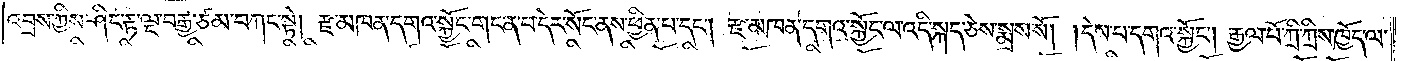འབྲས་ཀྱིས་ཤིང་རྟ་ལྔ་བརྒྱ་ཙམ་བཀང་སྟེ། རྫ་མཁན་དགའ་སྐྱོང་གང་ན་བ་དེར་སོང་ནས་ཕྱིན་པ་དང༌། རྫ་མཁན་དགའ་སྐྱོང་ལ་འདི་སྐད་ཅེས་སྨྲས་སོ། །དེས་པ་དགའ་སྐྱོང༌། རྒྱལ་པོ་ཀྲི་ཀྲིས་ཁྱོད་ལ་
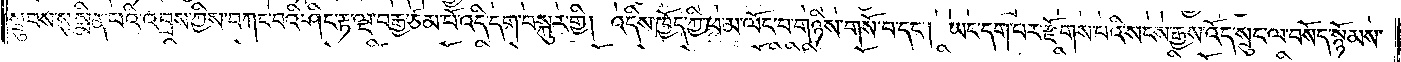སྦུབས་སུ་སྨིན་པའི་འབྲས་ཀྱིས་བཀང་བའི་ཤིང་རྟ་ལྔ་བརྒྱ་ཙམ་པོ་འདི་དག་བསྐུར་གྱི། འདིས་ཁྱོད་ཀྱི་ཕ་མ་ལོང་བ་གཉིས་གསོ་བ་དང༌། ཡང་དག་པར་རྫོགས་པའི་སངས་རྒྱས་འོད་སྲུང་ལ་བསོད་སྙོམས་
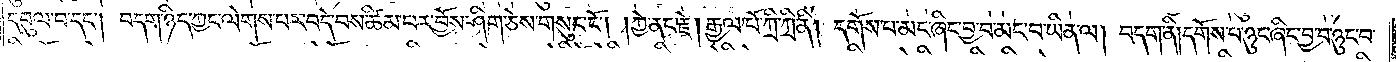དབུལ་བ་དང༌། བདག་ཉིད་ཀྱང་ལེགས་པར་བདེ་བས་ཚིམ་པར་བྱོས་ཤིག་ཅེས་གསུང་ངོ༌། །ཀྱེ་ནང་རྗེ། རྒྱལ་པོ་ཀྲི་ཀྲི་ནི། དགོས་པ་མང་ཞིང་བྱ་བ་མང་བ་ཡིན་ལ། བདག་ནི། དགོས་པ་ཉུང་ཞིང་བྱ་བ་ཉུང་བ་
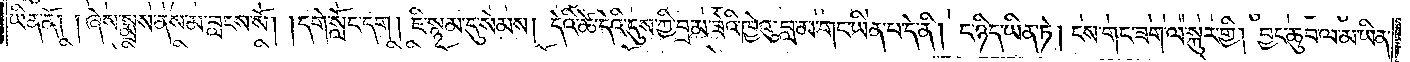ཡིན་ནོ། །ཞེས་སྨྲས་ནས་མ་བླངས་སོ། །དགེ་སློང་དག། ཇི་སྙམ་དུ་སེམས། དེའི་ཚེ་དེའི་དུས་ཀྱི་བྲམ་ཟེའི་ཁྱེའུ་བླ་མ་གང་ཡིན་པ་དེ་ནི། ང་ཉིད་ཡིན་ཏེ། ངས་གང་ཟག་ལ་སྐུར་གྱི། བྱང་ཆུབ་ལ་མ་ཡིན་
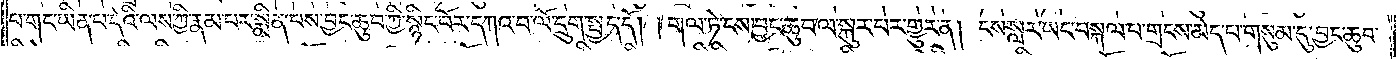པ་གང་ཡིན་པ་དེའི་ལས་ཀྱི་རྣམ་པར་སྨིན་པས་བྱང་ཆུབ་ཀྱི་སྙིང་པོར་དཀའ་བ་ལོ་དྲུག་སྤྱད་དོ། །གལ་ཏེ་ངས་བྱང་ཆུབ་ལ་སྐུར་པར་གྱུར་ན། ངས་སླར་ཡང་བསྐལ་པ་གྲངས་མེད་པ་གསུམ་དུ་བྱང་ཆུབ་
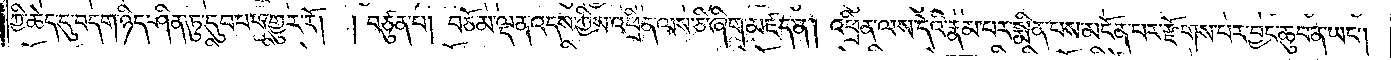ཀྱི་ཆེད་དུ་བདག་ཉིད་ཤིན་ཏུ་དུབ་པར་འགྱུར་རོ། །བཙུན་པ། བཅོམ་ལྡན་འདས་ཀྱིས་འཕྲིན་ལས་ཅི་ཞིག་མཛད་ན། འཕྲིན་ལས་དེའི་རྣམ་པར་སྨིན་པས་མངོན་པར་རྫོགས་པར་བྱང་ཆུབ་ན་ཡང༌།
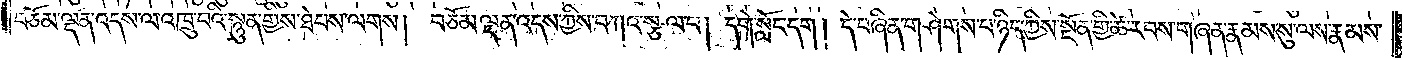བཅོམ་ལྡན་འདས་ལ་འཁྲུ་བའི་སྙུན་གྱིས་ཐེབས་ལགས། བཅོམ་ལྡན་འདས་ཀྱིས་བཀའ་སྩལ་པ། དགེ་སློང་དག། དེ་བཞིན་གཤེགས་པ་ཉིད་ཀྱིས་སྔོན་གྱི་ཚེ་རབས་གཞན་རྣམས་སུ་ལས་རྣམས་
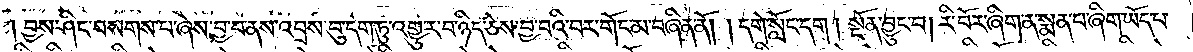།བྱས་ཤིང་བསགས་པ་ཞེས་བྱ་བ་ནས་འབྲས་བུ་དག་ཏུ་འགྱུར་བ་ཉིད་ཅེས་བྱ་བའི་བར་གོང་མ་བཞིན་ནོ། །དགེ་སློང་དག། སྔོན་བྱུང་བ། རི་བོར་ཞིག་ན་སྨན་བ་ཞིག་ཡོད་པ་
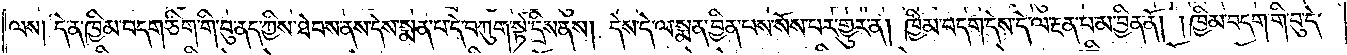ལས། དེ་ན་ཁྱིམ་བདག་ཅིག་གི་བུ་ནད་ཀྱིས་ཐེབས་ནས་དེས་སྨན་པ་དེ་བཀུག་སྟེ་དྲིས་ནས། དེས་དེ་ལ་སྨན་བྱིན་པས་སོས་པར་གྱུར་ན། ཁྱིམ་བདག་དེས་དེ་ལ་རྔན་པ་མ་བྱིན་ནོ། །ཁྱིམ་བདག་གི་བུ་དེ་
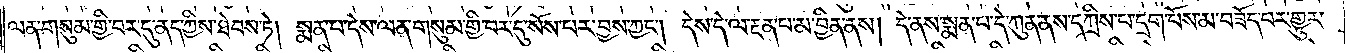ལན་གསུམ་གྱི་བར་དུ་ནད་ཀྱིས་ཐེབས་ཏེ། སྨན་པ་དེས་ལན་གསུམ་གྱི་བར་དུ་སོས་པར་བྱས་ཀྱང༌། དེས་དེ་ལ་རྔན་པ་མ་བྱིན་ནས། དེ་ནས་སྨན་པ་དེ་ཀུན་ནས་དཀྲིས་པ་དྲག་པོས་མ་བཟོད་པར་གྱུར་
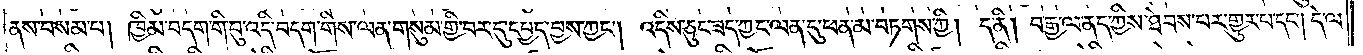ནས་བསམ་པ། ཁྱིམ་བདག་གི་བུ་འདི་བདག་གིས་ལན་གསུམ་གྱི་བར་དུ་དཔྱད་བྱས་ཀྱང༌། འདིས་ཅུང་ཟད་ཀྱང་ལན་དུ་ཕན་མ་བཏགས་ཀྱི། ད་ནི། བརྒྱ་ལ་ནད་ཀྱིས་ཐེབས་པར་གྱུར་པ་དང༌། དེ་ལ་
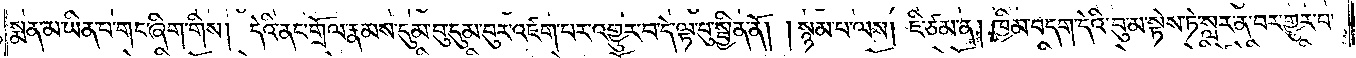སྨན་མ་ཡིན་པ་གང་ཞིག་གིས། དེའི་ནང་གྲོལ་རྣམས་དུམ་བུ་དུམ་བུར་འཛག་པར་འགྱུར་བ་དེ་ལྟ་བུ་སྦྱིན་ནོ། །སྙམ་པ་ལས། ཇི་ཙམ་ན། ཁྱིམ་བདག་དེའི་བུ་མ་སྟེས་ཏེ་སླར་ན་བར་གྱུར་པ་
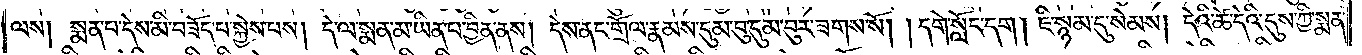ལས། སྨན་པ་དེས་མི་བཟོད་པ་སྐྱེས་པས། དེ་ལ་སྨན་མ་ཡིན་པ་བྱིན་ནས། དེས་ནང་གྲོལ་རྣམས་དུམ་བུ་དུམ་བུར་ཟག་སོ། །དགེ་སློང་དག། ཇི་སྙམ་དུ་སེམས། དེའི་ཚེ་དེའི་དུས་ཀྱི་སྨན་
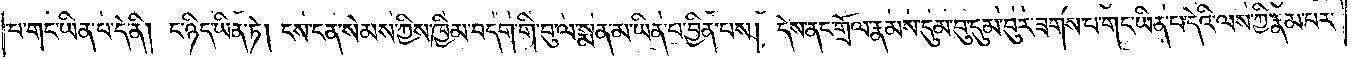པ་གང་ཡིན་པ་དེ་ནི། ང་ཉིད་ཡིན་ཏེ། ངས་ངན་སེམས་ཀྱིས་ཁྱིམ་བདག་གི་བུ་ལ་སྨན་མ་ཡིན་པ་བྱིན་པས། དེས་ནང་གྲོལ་རྣམས་དུམ་བུ་དུམ་བུར་ཟགས་པ་གང་ཡིན་པ་དེའི་ལས་ཀྱི་རྣམ་པར་
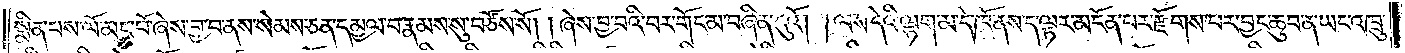སྨིན་པས་ལོ་མང་པོ་ཞེས་བྱ་བ་ནས་སེམས་ཅན་དམྱལ་བ་རྣམས་སུ་བཙོས་སོ། །ཞེས་བྱ་བའི་བར་གོང་མ་བཞིན་དུའོ། །ལས་དེའི་ལྷག་མ་དེ་ཁོ་ནས་ད་ལྟར་མངོན་པར་རྫོགས་པར་བྱང་ཆུབ་ན་ཡང་འཁྲུ་
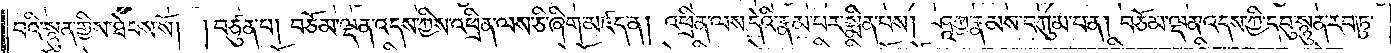བའི་སྙུན་གྱིས་ཐེབས་སོ། །བཙུན་པ། བཅོམ་ལྡན་འདས་ཀྱིས་འཕྲིན་ལས་ཅི་ཞིག་མཛད་ན། འཕྲིན་ལས་དེའི་རྣམ་པར་སྨིན་པས། ཤཱཀྱ་རྣམས་བཀུམ་པ་ན། བཅོམ་ལྡན་འདས་ཀྱི་དབུ་སྙུན་རབ་ཏུ་
